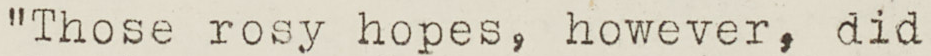"Those rosy hopes, however, did
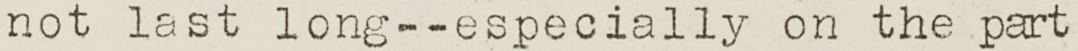not last long--especially on the part
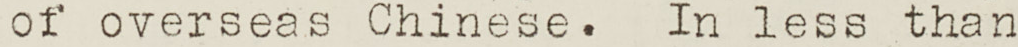of overseas Chinese. In less than
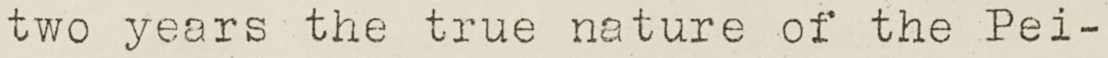two years the true nature of the Pei-
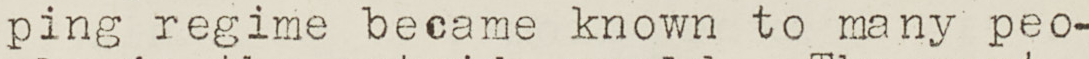ping regime became known to many peo-
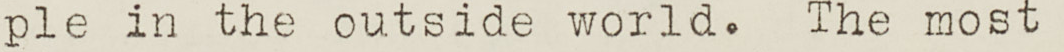ple in the outside world. The most
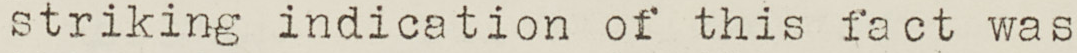striking indication of this fact was
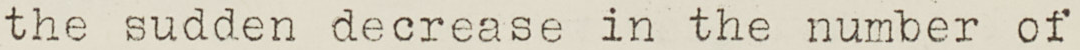the sudden decrease in the number of
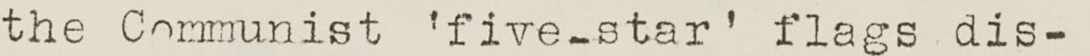the Communist 'five-star', flags dis-
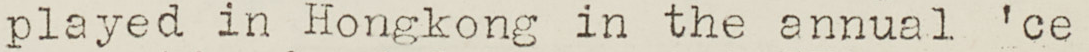played in Hongkong in the annual 'ce
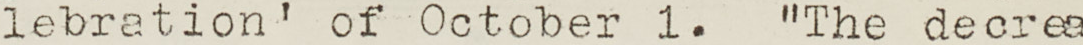lebration of October 1. "The decrea
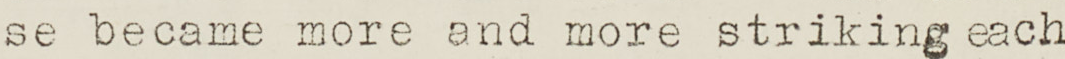se became more and more striking each
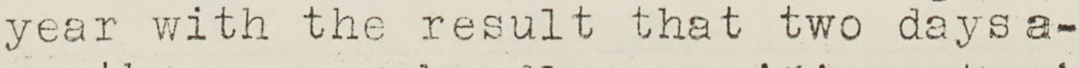year with the result that two days a-
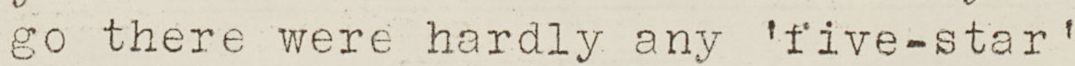go there were hardly any 'five-star'
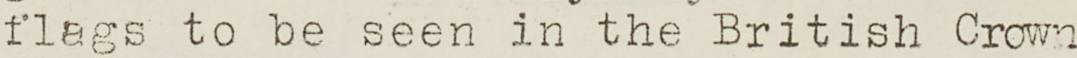flags to be seen in the British Crown
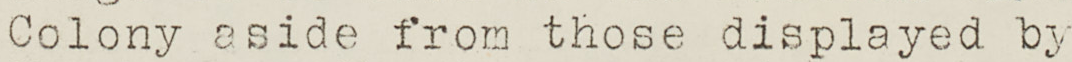Colony aside from those displayed by
